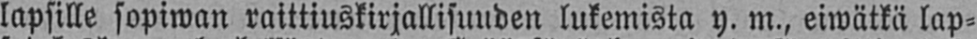lapsille sopiwan raittiuskirjallisuuden lukemista y. m., eiwätkä lap-
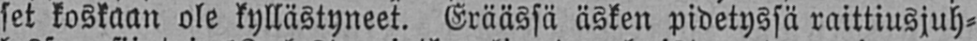set koskaan ole kyllästyneet. Eräässä äsken pidetyssä raittiusjuh-
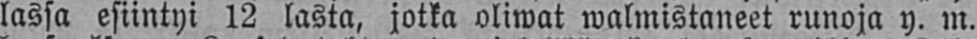lassa esiintyi 12 lasta, jotka oliwat walmistaneet runoja y. m.
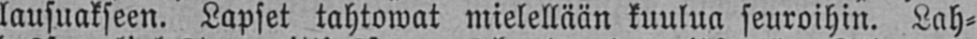lausuakseen. Lapset tahtowat mielellään kuulua seuroihin. Lah-
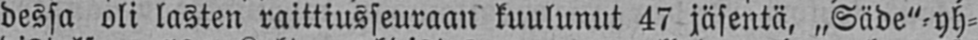dessa oli lasten raittiusseuraan kuulunut 47 jäsentä, „Säde"-yh-
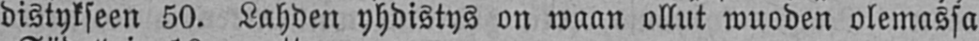distykseen 50. Lahden yhdistys on waan ollut wuoden olemassa
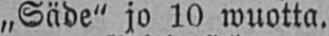„Säde" jo 10 wuotta.
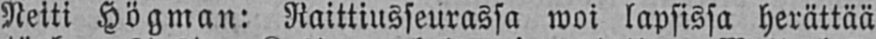Neiti Högman: Raittiusseurassa woi lapsissa herättää
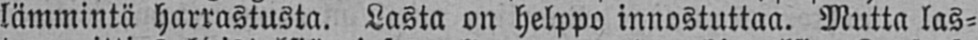lämmintä harrastusta. Lasta on helppo innostuttaa. Mutta las-
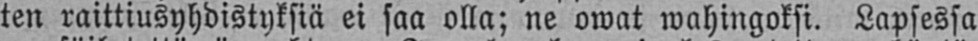ten raittiusyhdistyksiä ei saa olla; ne owat wahingoksi. Lapsessa
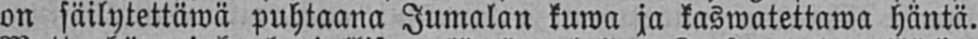on säilytettäwä puhtaana Jumalan kuwa ja kaswatettawa häntä.
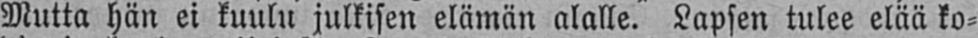Mutta hän ei kuulu julkisen elämän alalle. Lapsen tulee elää ko-
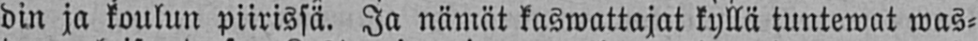din ja koulun piirissä. Ja nämät kaswattajat kyllä tuntewat was-
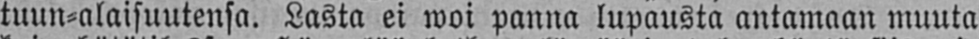tuun-alaisuutensa. Lasta ei woi panna lupausta antamaan muuta
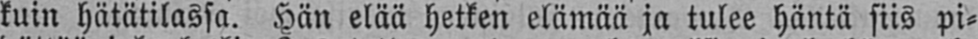kuin hätätilassa. Hän elää hetken elämää ja tulee häntä siis pi-
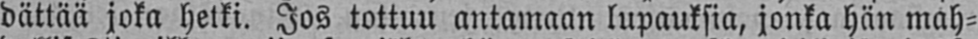dättää joka hetki. Jos tottuu antamaan lupauksia, jonka hän mah-
